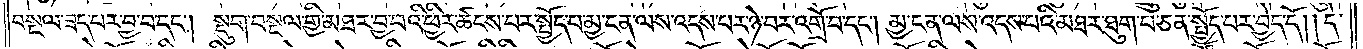བསྔལ་ཟད་པར་བྱ་བ་དང༌། སྡུག་བསྔལ་གྱི་མཐར་བྱ་བའི་ཕྱིར་ཚངས་པར་སྤྱོད་པ་མྱ་ངན་ལས་འདས་པར་ཉེ་བར་འགྲོ་བ་དང༌། མྱ་ངན་ལས་འདས་པའི་མཐར་ཐུག་པ་ཅན་སྤྱོད་པར་བྱེད་དོ། །དེ་
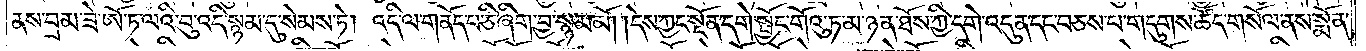ནས་བྲམ་ཟེ་ཨོ་ཏ་ལའི་བུ་འདི་སྙམ་དུ་སེམས་ཏེ། འདི་ལ་གནོད་པ་ཅི་ཞིག་བྱ་སྙམ་མོ། །དེས་ཀྱང་སྔོན་དགེ་སྦྱོང་གོའུ་ཏ་མ་ཉན་ཐོས་ཀྱི་དགེ་འདུན་དང་བཅས་པ་གདུགས་ཚོད་གསོལ་ནས་སྨོན་
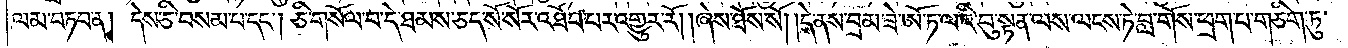ལམ་བཏབ་ན། དེས་ཅི་བསམ་པ་དང༌། ཅི་གསོལ་བ་དེ་ཐམས་ཅད་སོ་སོར་འཐོབ་པར་འགྱུར་རོ། །ཞེས་ཐོས་སོ། །དེ་ནས་བྲམ་ཟེ་ཨོ་ཏ་ལའི་བུ་སྟན་ལས་ལངས་ཏེ་བླ་གོས་ཕྲག་པ་གཅིག་ཏུ་
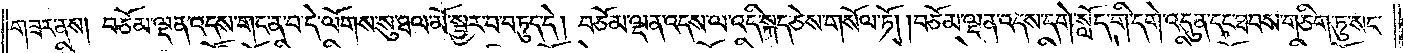གཟར་ནས། བཅོམ་ལྡན་འདས་གང་ན་བ་དེ་ལོགས་སུ་ཐལ་མོ་སྦྱར་བ་བཏུད་དེ། བཅོམ་ལྡན་འདས་ལ་འདི་སྐད་ཅེས་གསོལ་ཏོ། །བཅོམ་ལྡན་འདས་དགེ་སློང་གི་དགེ་འདུན་དང་ཐབས་གཅིག་ཏུ་སང་
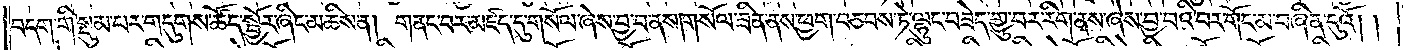བདག་གི་སྡུམ་པར་གདུགས་ཚོད་སྦྱོར་ཞིང་མཆིས་ན། གནང་བར་མཛད་དུ་གསོལ་ཞེས་བྱ་བ་ནས། གསོལ་ཟིན་ནས་ཕྱག་བཅབས་ཏེ་ལྷུང་བཟེད་གྱུ་བར་རིག་ནས་ཞེས་བྱ་བའི་བར་གོང་མ་བཞིན་དུའོ། །
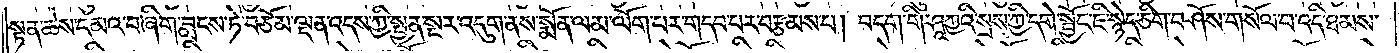སྟན་ཆེས་དམའ་བ་ཞིག་བླངས་ཏེ་བཅོམ་ལྡན་འདས་ཀྱི་སྤྱན་སྔར་འདུག་ནས་སྨོན་ལམ་ལོག་པར་གདབ་པར་བརྩམས་པ། བདག་གི་ཤཱཀྱའི་སྲས་ཀྱི་དགེ་སྦྱོང་ཇི་སྙེད་ཅིག་བཤོས་གསོལ་བ་འདི་ཐམས་
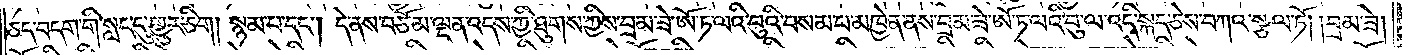ཅད་བདག་གི་སླད་དུ་གྱུར་ཅིག །སྙམ་པ་དང༌། དེ་ནས་བཅོམ་ལྡན་འདས་ཀྱི་ཐུགས་ཀྱིས་བྲམ་ཟེ་ཨོ་ཏ་ལའི་བུའི་བསམ་པ་མཁྱེན་ནས་བྲམ་ཟེ་ཨོ་ཏ་ལའི་བུ་ལ་འདི་སྐད་ཅེས་བཀའ་སྩལ་ཏོ། །བྲམ་ཟེ།
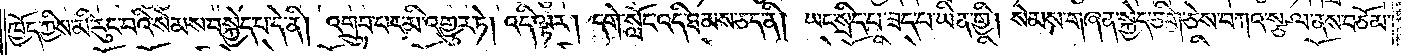ཁྱོད་ཀྱིས་མི་རུང་བའི་སེམས་བསྐྱེད་པ་དེ་ནི། འགྲུབ་པར་མི་འགྱུར་ཏེ། འདི་ལྟར། དགེ་སློང་འདི་ཐམས་ཅད་ནི། ཡང་སྲིད་པ་ཟད་པ་ཡིན་གྱི། སེམས་གཞན་སྐྱེད་ཅིག་ཅེས་བཀའ་སྩལ་ནས་བཅོམ་
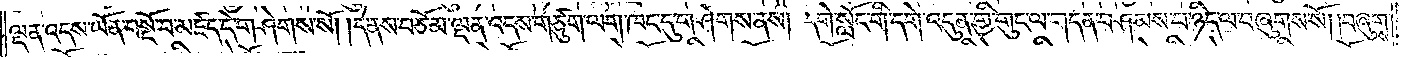ལྡན་འདས་ཡོན་བསྔོ་བ་མཛད་དེ་གཤེགས་སོ། །དེ་ནས་བཅོམ་ལྡན་འདས་གཙུག་ལག་ཁང་དུ་གཤེགས་ནས། དགེ་སློང་གི་དགེ་འདུན་གྱི་གུང་ལ་གདན་བཤམས་པ་ཉིད་ལ་བཞུགས་སོ། །བཞུགས་
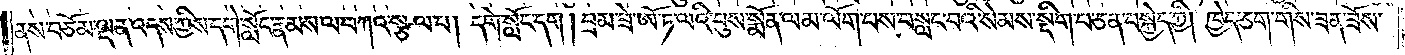ནས་བཅོམ་ལྡན་འདས་ཀྱིས་དགེ་སློང་རྣམས་ལ་བཀའ་སྩལ་པ་།དགེ་སློང་དག །བྲམ་ཟེ་ཨོ་ཏ་ལའི་བུས་སྨོན་ལམ་ལོག་པས་བསླང་བའི་སེམས་སྡིག་པ་ཅན་བསྐྱེད་ཀྱི། ཁྱེད་ཅག་གིས་ཟན་ཟོས་
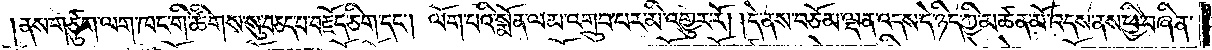ནས་གཙུག་ལག་ཁང་གི་ཚིགས་སུ་བཅད་པ་བརྗོད་ཅིག་དང༌། ལོག་པའི་སྨོན་ལམ་འགྲུབ་པར་མི་འགྱུར་རོ། །དེ་ནས་བཅོམ་ལྡན་འདས་དེ་ཉིད་ཀྱི་མཚན་མོ་འདས་ནས་ཕྱི་བཞིན་
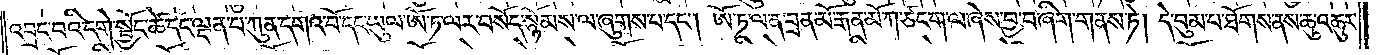འབྲང་བའི་དགེ་སྦྱོང་ཚེ་དང་ལྡན་པ་ཀུན་དགའ་བོ་དང་ཡུལ་ཨོ་ཏ་ལར་བསོད་སྙོམས་ལ་ཞུགས་པ་དང༌། ཨོ་ཏ་ལ་ན་བྲན་མོ་རྒན་མོ་ཀ་ཙང་ག་ལ་ཞེས་བྱ་བ་ཞིག་གནས་ཏེ། དེ་བུམ་པ་ཐོགས་ནས་ཆུ་འཆུར་
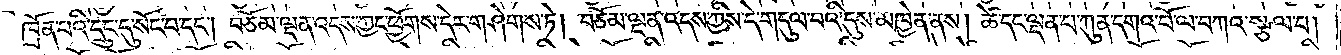ཁྲོན་པའི་དྲུང་དུ་སོང་བ་དང༌། བཅོམ་ལྡན་འདས་ཀྱང་ཕྱོགས་དེར་གཤེགས་ཏེ། བཅོམ་ལྡན་འདས་ཀྱིས་དེ་གདུལ་བའི་དུས་མཁྱེན་ནས། ཚེ་དང་ལྡན་པ་ཀུན་དགའ་བོ་ལ་བཀའ་སྩལ་པ།
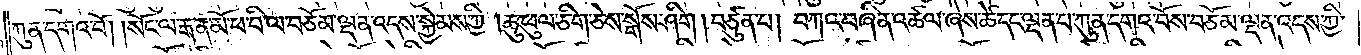ཀུན་དགའ་བོ། །སོང་ལ་རྒན་མོ་ཕ་བི་ལ་བཅོམ་ལྡན་འདས་སྐྱེམས་ཀྱི། །ཆུ་ཕུལ་ཅིག་ཅེས་སྒོས་ཤིག །བཙུན་པ། བཀའ་བཞིན་འཚལ་ཞེས་ཚེ་དང་ལྡན་པ་ཀུན་དགའ་བོས་བཅོམ་ལྡན་འདས་ཀྱི་
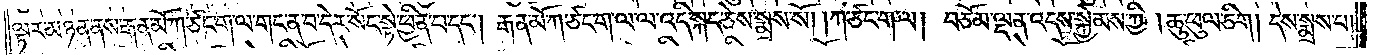ལྟར་མཉན་ནས་རྒན་མོ་ཀ་ཙང་ག་ལ་གང་ན་བ་དེར་སོང་སྟེ་ཕྱིན་པ་དང༌། རྒན་མོ་ཀ་ཙང་ག་ལ་ལ་འདི་སྐད་ཅེས་སྨྲས་སོ། །ཀ་ཙང་ག་ལ། བཅོམ་ལྡན་འདས་སྐྱེམས་ཀྱི་།ཆུ་ཕུལ་ཅིག །དེས་སྨྲས་པ།
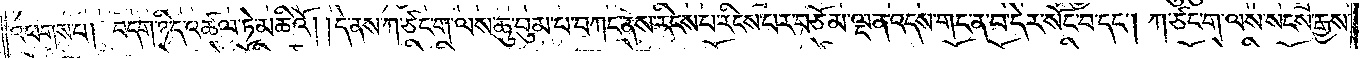འཕགས་པ། བདག་ཉིད་འཚལ་ཏེ་མཆིའོ། །དེ་ནས་ཀ་ཙང་ག་ལས་ཆུ་བུམ་པ་བཀང་ནས་རིངས་པ་རིངས་པར་བཅོམ་ལྡན་འདས་གང་ན་བ་དེར་སོང་བ་དང༌། ཀ་ཙང་ག་ལས་སངས་རྒྱས་
